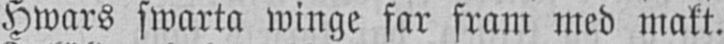Hwars swarta winge far fram med makt.
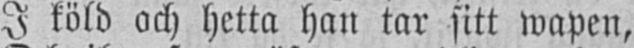I köld och hetta han tar sitt wapen,
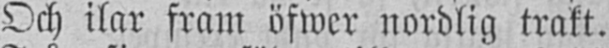Och ilar fram öfwer nordlig trakt.
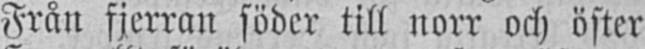Från fjerran söder till norr och öster
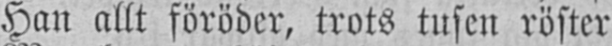Han allt föröder, trots tusen röster
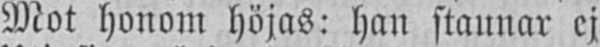Mot honom höjas: han stannar ej
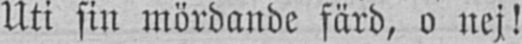Uti sin mördande färd, o nej!
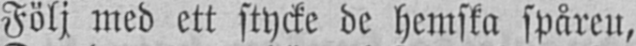Följ med ett stycke de hemska spåren,
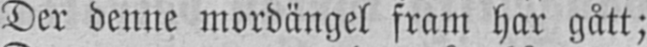Der denne mordängel fram har gått;
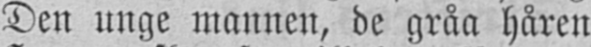Den unge mannen, de gråa håren
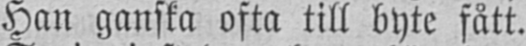Han ganska ofta till byte fått.
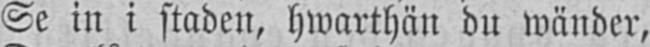Se in i staden, hwarthän du wänder,
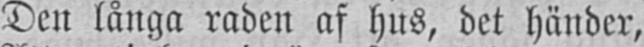Den långa raden af hus, det händer,
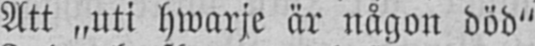Att „uti hwarje är någon död"
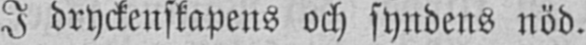I dryckenskapens och syndens nöd.
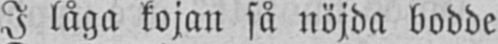I låga kojan så nöjda bodde
